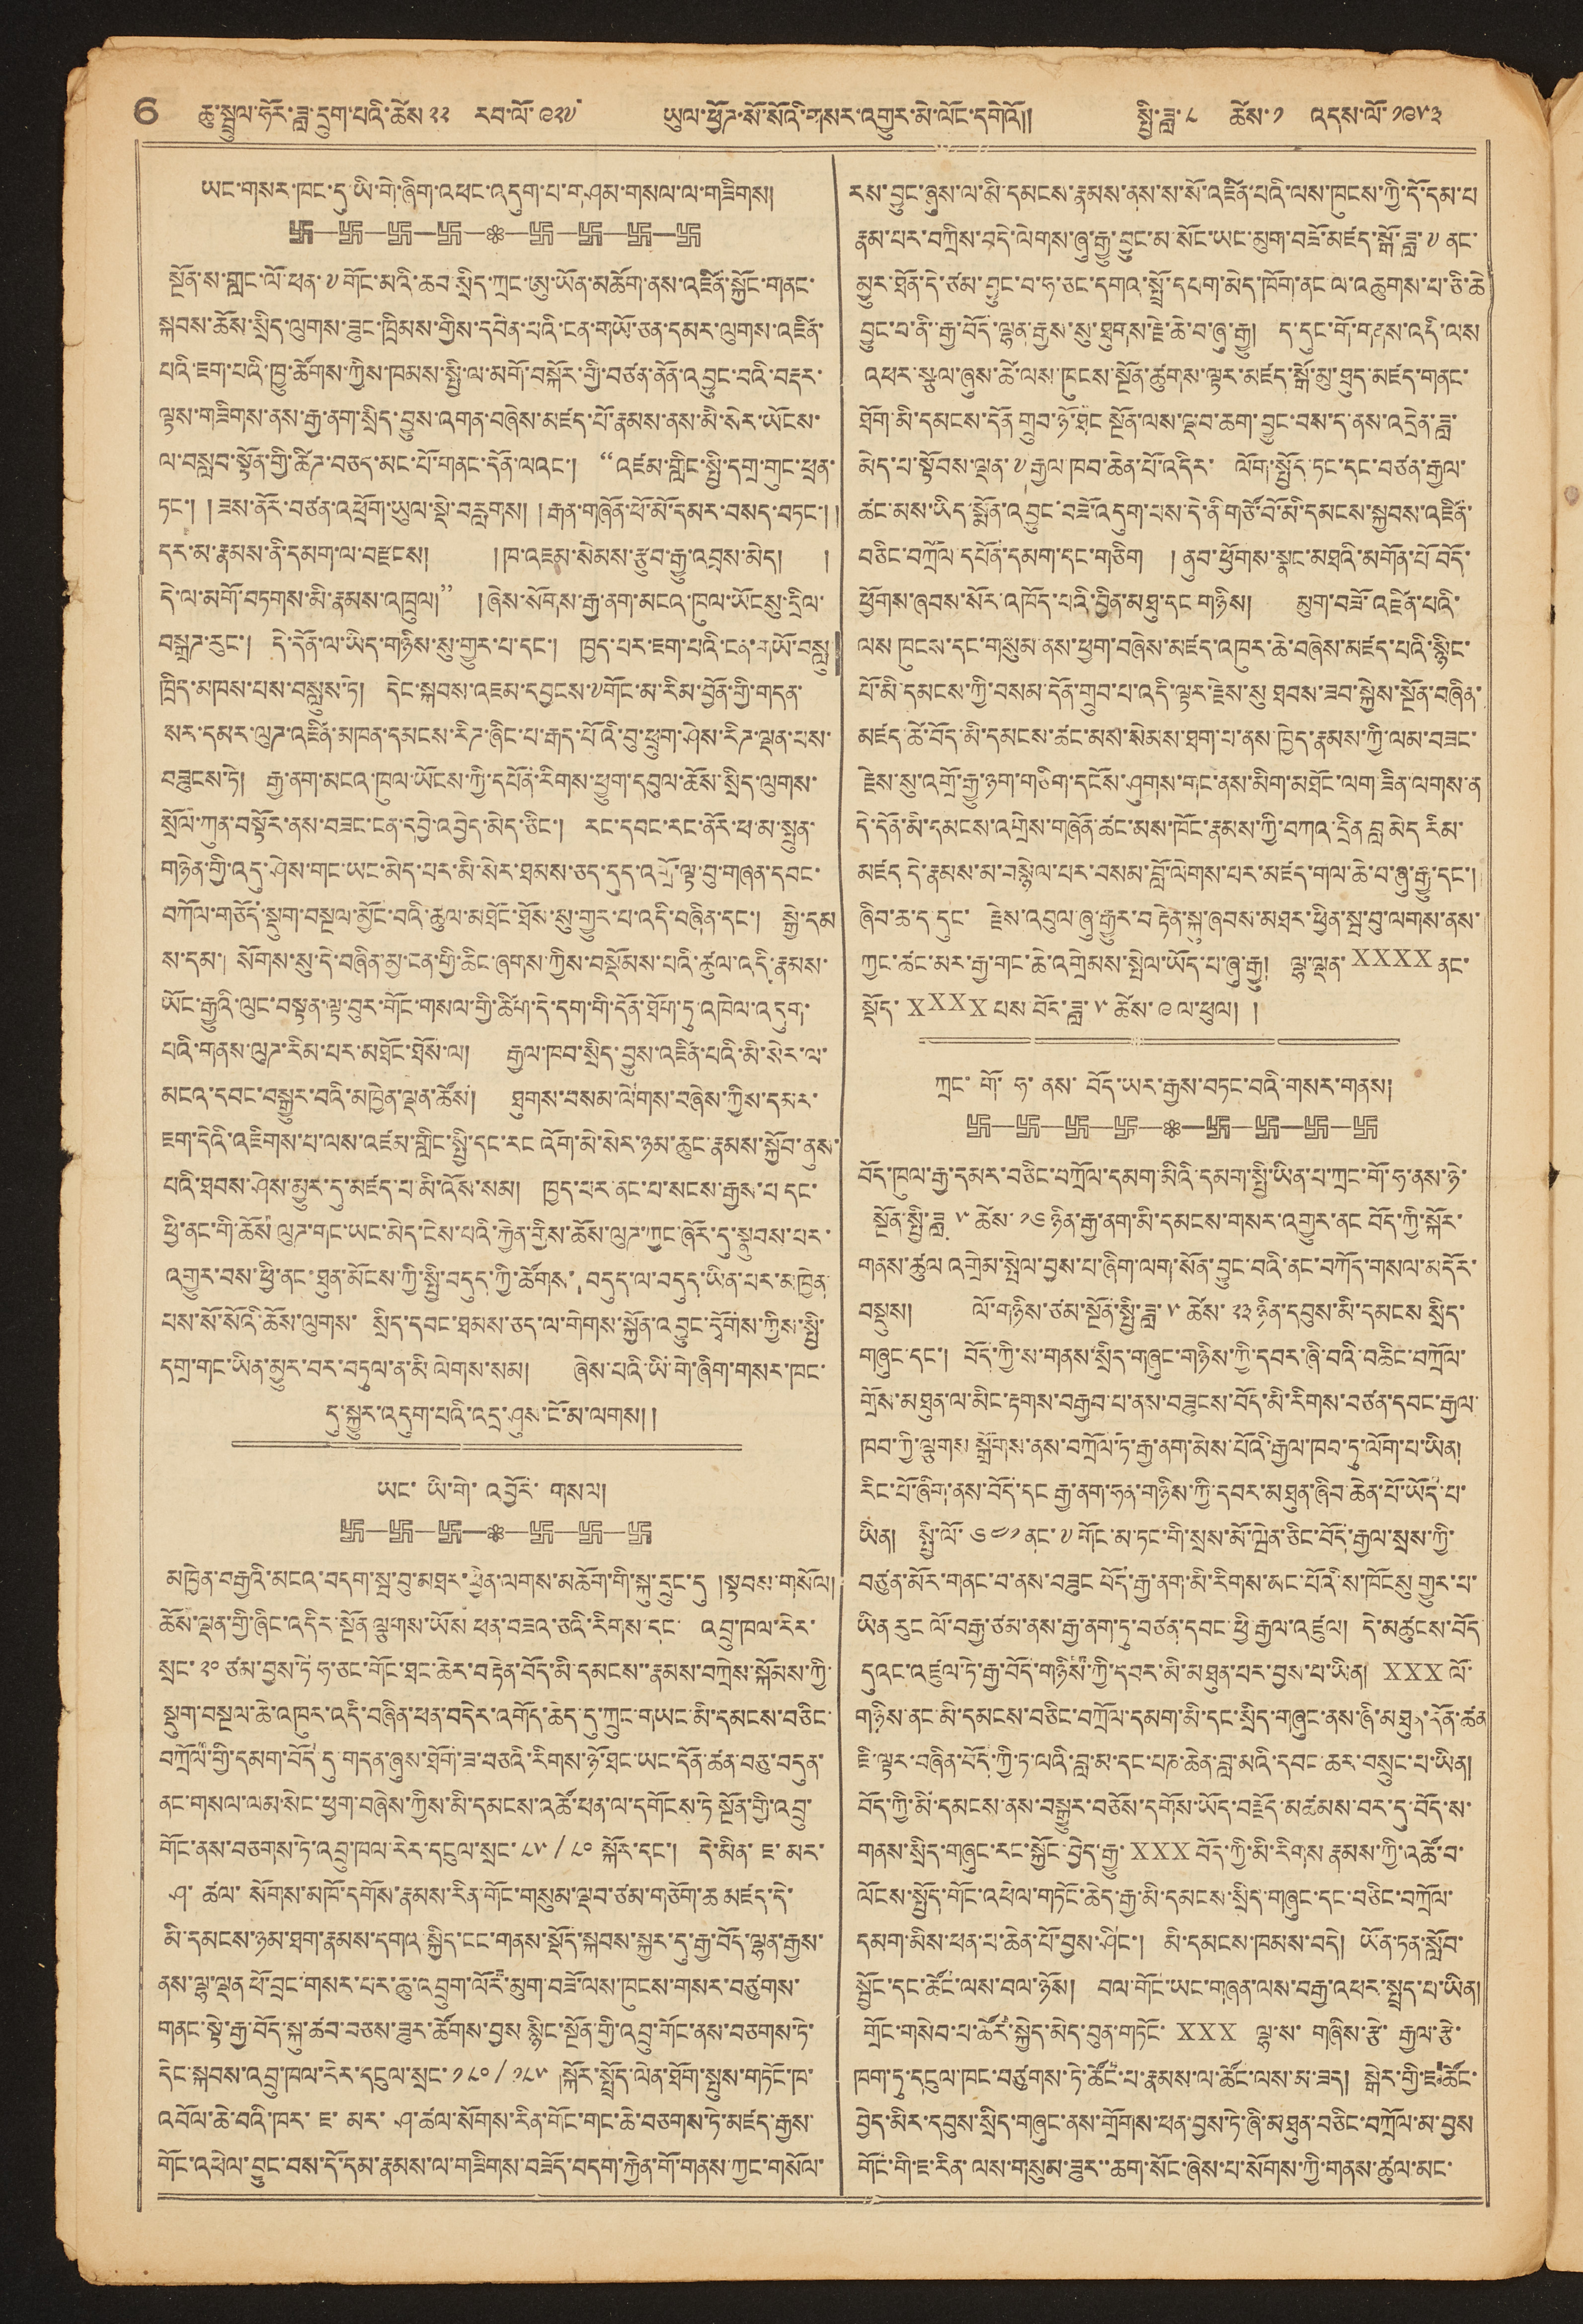6 ཆུ་སྦྲུལ་ཧོར་ཟླ་དྲུག་པའི་ཚེས་ ༢༢ རབ་ལོ་ ༩༢༧ ཡུལ་ཕྱོཌ་སོ་སོའི་གསར་འགྱུར་མེ་ལོང་དགེའི།། སྤྱི་ཟླ་༨ ཚེས་༡ འདས་ལོ་ ༡༩༥༣
ཡང་གསར་ཁང་དུ་ཡི་གེ་ཞིག་འཕང་འདུག་པ་གཤམ་གསལ་ལ་གཟིགས།
སྔོན་ས་གླང་ལོ་ཕན་༸གོང་མའི་ཆབ་སྲིད་ཀྲང་ཨུ་ཡོན་མཆོག་ནས་འཛིན་སྐྱོང་གནང་
སྐབས་ཆོས་སྲིད་ལུགས་ཟུང་ཁྲིམས་གྱིས་དབེན་པའི་ངན་གཡོ་ཅན་དམར་ལུགས་འཛིན་
པའི་ཇག་པའི་ཁྱུ་ཚོགས་ཀྱིས་ཁམས་སྤྱི་ལ་མགོ་བསྐོར་གྱི་བཙན་ནོན་འབྱུང་བའི་བརྡར་
ལྟས་གཟིགས་ནས་རྒྱ་ནག་སྲིད་བྱུས་འགན་བཞེས་མཛད་པོ་རྣམས་ནས་མི་སེར་ཡོངས་
ལ་བསླབ་སྟོན་གྱི་ཚིཌ་བཅད་མང་པོ་གནང་དོན་ལའང་། '"འཛམ་གླིང་སྤྱི་དགྲ་གུང་ཕྲན་
ཏང་། །ཟས་ནོར་བཙན་འཕྲོག་ཡུལ་སྡེ་བརླགས། །རྒན་གཞོན་ཕོ་མོ་དམར་བསད་བཏང་།།
དར་མ་རྣམས་ནི་དམག་ལ་བརྫངས། ཁ་འཇམ་སེམས་རྩུབ་རྒྱུ་འབྲས་མེད།།
དེ་ལ་མགོ་བཏགས་མི་རྣམས་འཁྲུལ།" །ཞེས་སོགས་རྒྱ་ནག་མངའ་ཁུལ་ཡོངསུ་དྲིལ་
བསྒྲཌ་རུང་། དེ་དོན་ལ་ཡིད་གཉིས་སུ་གྱུར་པ་དང་། ཁྱད་པར་ཇག་པའི་ངན་གཡོ་བསླུ་
ཁྲིད་མཁས་པས་བསླུས་ཏེ། དེང་སྐབས་འཇམ་དབྱངས་༸གོང་མ་རིམ་བྱོན་གྱི་གདན་
སར་དམར་ལུཌ་འཛིན་མཁན་དམངས་རིཌ་ཞིང་པ་རྒད་པོའི་བུ་ཕྲུག་ཤེས་རིཌ་ལྡན་པས་
བཟུངས་ཏེ། རྒྱ་ནག་མངའ་ཁུལ་ཡོངས་ཀྱི་དཔོན་རིགས་ཕྱུག་དབུལ་ཆོས་སྲིད་ལུགས་
སྲོལ་ཀུན་བསྟོར་ནས་བཟང་ངན་དབྱེ་འབྱེད་མེད་ཅིང་། རང་དབང་ནོར་ཕ་མ་སྤུན་
གཉེན་གྱི་འདུ་ཤེས་གང་ཡང་མེད་པར་མི་སེར་ཐམས་ཅད་དུད་འགྲོ་ལྟ་བུ་གཞན་དབང་
བཀོལ་གཅོད་སྡུག་བསྔལ་མྱོང་བའི་ཚུལ་མཐོང་ཐོས་སུ་གྱུར་པ་འདི་བཞིན་དང་། སྒྱེ་དམ་
ས་དམ་། སོགས་སུ་དེ་བཞིན་མྱ་ངན་གྱི་ཆིང་ཞགས་ཀྱིས་བསྡོམས་པའི་ཚུལ་འདི་རྣམས་
ཡོང་རྒྱུའི་ལུང་བསྟན་ལྟ་བུར་གོང་གསལ་གྱི་ཚིག་དེ་དག་གོ་དོན་ཐོག་ཏུ་འཁེལ་འདུག་
པའི་གནས་ལུཌ་རིམ་པར་མཐོང་ཐོས་ལ། རྒྱལ་ཁབ་སྲིད་བྱུས་འཛིན་པའི་མི་སེར་ལ་
མངའ་དབང་བསྒྱུར་བའི་མཁྱེན་ལྡན་ཚོས། ཐུགས་བསམ་ལེགས་བཞེས་ཀྱིས་དམར་
ཇག་དེའི་འཇིགས་པ་ལས་འཛམ་གླིང་སྤྱི་དང་རང་འོག་མེ་སེར་ཉམ་ཆུང་རྣམས་སྐྱོབ་ནུས་
པའི་ཐབས་ཤེས་མྱུར་དུ་མཛད་པ་མི་འོས་སམ། ཁྱད་པར་ནང་པ་སངས་རྒྱས་པ དང་
ཕྱི་ནང་གི་ཆོས་ལུཌ་གང་ཡང་མེད་ངེས་པའི་རྐྱེན་གྱིས་ཆོས་ལུཌ་ཀྱང་ཞོར་དུ་སྣུབས་པར་
འགྱུར་བས་ཕྱི་ནང་ཐུན་མོངས་ཀྱི་སྤྱི་བདུད་ཀྱི་ཚོགས། བདུད་ལ་བདུད་ཡིན་པར་མཁྱེན་
པས་སོ་སོའི་ཆོས་ལུགས་སྲིད་དབང་ཐམས་ཅད་ལ་གེགས་སྐྱོན་འབྱུང་དྭོགས་ཀྱིས་སྤྱི་
དགྲ་གང་ཡིན་མྱུར་བར་བཏུལ་ན་མི་ལེགས་སམ། ཞེས་པའི་ཡི་གེ་ཞིག་གསར་ཁང་
དུ་སྐྱུར་འདུག་པའི་འདྲ་ཤུས་ངོ་མ་ལགས།
ཡང་ཡི་གེ་འབྱོར་གསལ།
མཁྱེན་བརྒྱའི་མངའ་བདག་སྦ་བུ་མཐར་ཕྱིན་ལགས་མཆོག་གི་སྐུ་དྲུང་དུ །སྟབས་གསོལ།
ཆོས་ལྡན་གྱི་ཞིང་འདིར་སྔོན་ལྕགས་ཡོས ཕན་བཟའ་ཅའི་རིགས་དང་ འབྲུ་ཁལ་རེར་
སྲང་ ༢༠ ཙམ་བྱས་ཏེ ཧ་ཅང་གོང་ཐང་ཆེར་བརྟེན་བོད་མི་དམངས་་རྣམས་བཀྲེས་སྐོབས་ཀྱི་
སྡུག་བསྔལ་ཆེ་འཁུར་འདི་བཞིན་ཕན་བདེར་འགོད་ཆེད་དུ་ཀྲུང་གྱང་མི་དམངས་བཅིང་
བཀྲོལ་གྱི་དམག་བོད་དུ་གདན་ཞུས་ཐོག་ཟ་བཅའི་རིགས་ཉོ་ཐང་ཡང་དོན་ཚན་བཅུ་བདུན་
ནང་གསལ་ལམ་སེང་ཕྱག་བཞེས་ཀྱིས་མི་དམངས་འཚོ་ཕན་ལ་དགོངས་ཏེ སྔོན་གྱི་འབྲུ་
གོང་ནས་བཅགས་ཏེ་འབྲུ་ཁལ་རེར་དངུལ་སྲུང་ ༨༥ / ༨༠ སྐོར་དང་། དེ་མིན་ཇ་མར་
ཤ་ཚལ་སོགས་མཁོ་དགོས་རྣམས་རིན་གོང་གསུམ་ལྡབ་ཙམ་གཅོག་ཆ་མཛད་དེ་
མི་དམངས་ཉམ་ཐག་རྣམས་དགའ་སྐྱིད་ངང་གནས་སྡོད་སྐབས་སྐྱར་དུ་རྒྱ་བོད་ལྷན་རྒྱས་
ནས་ལྷ་ལྡན་ཕོ་བྲང་གསར་པར་ཆུ་འབྲུལ་ལོར་མུག་བཟོ་ལས་ཁུངས་གསར་བཙུགས་
གནང་སྟེ་རྒྱ་བོད་སྐུ་ཚབ་བཅས་ཟུར་ཚོགས་བྱས སྙིང་སྔོན་གྱི་འབྲུ་གོང་ནས་བཅགས་ཏེ་
དེང་སྐབས་འབྲུ་ཁལ་རེར་དངུལ་སྲང་ ༡༨༠/ ༡༨༥ སྐོར་སྤྲོད་ལེན་ཐོག་སྤུས་གཏོར་ཁ་
འབོལ་ཆེ་བའི་ཁར་ཇ་མར་ཤ་ཚལ་སོགས་རིན་གོང་གང་ཆེ་བཅགས་ཏེ་མཛད་རྒྱས་
གོང་འཕེལ་བྱུང་བས་དོ་དམ་རྣམས་ལ་གཟིགས་བཟོད་བདག་རྐྱེན་གོ་གནས་ཀྱང་གསོལ་
རས་བྱུང་ཞུས་ལ་མི་དམངས་རྣམས་ནས་ས་སོ་འཛིན་པའི་ལས་ཁུངས་ཀྱི་དོ་དམ་པ
རྣམ་པར་བཀྲིས་བདེ་ལེགས་ཞུ་རྒྱུ་བྱུང་མ་སོང་ཡང་མུག་བཟོ་མཛད་སྒོ་ཟླ་ ༧ ནང་
མྱུར་ཐོན་དེ་ཙམ་བྱུང་བ་ཧ་ཅང་དགའ་སྤྱོ་དཔག་མེད་ཁོག་ནང་ལ་འཆུགས་པ་ཅི་ཆེ་
བྱུང་བ་ནི་རྒྱ་བོད་ལྷན་རྒྱས་སུ་ཐུགས་རྗེ་ཆེ་བ་ཞུ་རྒྱུ། ད་དུང་གོ་གནས་འདི་ལས
འཕར་ལྩལ་ཞུས་ཚེ་ལས་ཁུངས་སྔོན་ཚུགས་ལྟར་མཛད་སྒོ་མུ་ཐུད་མཛད་གནང་
ཐོག་མི་དམངས་དོན་གྲུབ་ཉོ་ཐང་སྔོན་ལས་ལྡབ་ཆག་བྱུང་བས་ད་ནས་འདྲེན་ཟླ་
མེད་པ་སྟོབས་ལྡན་༸རྒྱལ་ཁབ་ཆེན་པོ་འདིར་ལོག་སྤྱོད་ཏང་དང་བཙན་རྒྱལ་
ཚང་མས་ཡིད་སྨོན་འབྱུང་བཟོ་འདུག་པས་དེ་ནི་གཙོ་བོ་མི་དམངས་སྐྱབས་འཛིན་
བཅིང་བཀྲོལ་དཔོན་དམག་དང་གཅིག །ནུབ་ཕྱོགས་སྣང་མཐའི་མགོན་པོ་བོད་
ཕྱོགས་ཞབས་སོར་འཁོད་པའི་བྱིན་མཐུ་དང་གཉིས། མུག་བཟོ་འཛིན་པའི་
ལས་ཁུངས་དང་གསུམ་ནས་ཕྱག་བཞེས་མཛད་འཁུར་ཆེ་བཞེས་མཛད་འཁུར་ཆེ་བཞེས་མཛད་པའི་སྙིང་
པོ་མི་དམངས་ཀྱི་བསམ་དོན་གྲུབ་པ་འདི་ལྟར་རྗེས་སུ་ཐབས་ཟབ་སྐྱེས་སྔོན་བཞིན་
མཛད་ཚེ་བོད་མི་དམངས་ཚང་མས་སེམས་ཐག་པ་ནས་ཁྱེད་རྣམས་ཀྱི་ལམ་བཟང་
རྗེས་སུ་འགྲོ་རྒྱུ་ཉག་གཅིག་དངོས་ཤུགས་གང་ནས་མིག་མཐོང་ལག་ཟིན་ལགས་ན་
དེ་དོན་མི་དམངས་འགྲེས་གཞོན་ཚང་མས་ཁོང་རྣམས་ཀྱི་བཀའ་དྲིན བླ མེད རིམ་
མཛད དེ་རྣམས་མ་བསྙེལ་པར་བསམ་བློ་ལེགས་པར་མཛད་གལ་ཆེ་བ་ཞུ་རྒྱུ་དང་།
ཞིབ་ཆ་ད་དུང་རྗེས་འབུལ་ཞུ་རྒྱུར་བརྟེན་སྐུ་ཞབས་མཐར་ཕྱིན་སྦ་བུ་ལགས་ནས་
ཀྱང་ཚང་མར་རྒྱ་གང་ཆེ་འགྲེམས་སྤེལ་ཡོད་པ་ཞུ་རྒྱུ། ལྷ་ལྡན་XXXX ནང་
སྡོད་ XXXX པས བོད་ཟླ་༥ ཚེས་ ༩ ལ་ཕུལ། །
ཀྲང་གོ་ཧ་ནས་བོད་ཡར་རྒྱས་བཏང་བའི་གསར་གནས།
བོད་ཁུལ་རྒྱ་དམར་བཅིང་བཀྲོལ་དམག་མིའི་དམག་སྤྱི་ཡིན་པ་ཀྲང་གོ་ཧ་ནས་ཉེ་
སྔོན་སྤྱི་ཟླ་ ༥ ཚེས་ ༡༦ ཉིན་རྒྱ་ནག་མི་དམངས་གསར་འགྱུར་ནང བོད་ཀྱི་སྐོར་
གནས་ཚུལ་འགྲེམ་སྤེལ་བྱས་པ་ཞིག་ལག་སོན་བྱུང་བའི་ནང་བཀོད་གསལ་མདོར་
བསྡུས། ལོ་གཉིས་ཙམ་སྔོན་སྤྱི་ཟླ་༥ཚེས་༢༣ཉིན་དབུས་མི་དམངས སྲིད་
གཞུང་དང་། བོད་ཀྱི་ས་གནས་སྲིད་གཞུང་གཉིས་ཀྱི་དབར་ཞི་བའི་བཆིང་བཀྲོལ་
གྲོལ་མཐུན་ལ་མིང་རྟགས་བརྒྱབ་པ་ནས་བཟུངས་བོད་མི་རིགས་བཙན་དབང་རྒྱལ་
ཁབ་ཀྱི་ལྕགས  སྒྲོགས་ནས་བཀྲོལ་ཏ་རྒྱ་ནག་མེས་པོའི་རྒྱལ་ཁབ་ཏུ་ལོག་པ་ཡིན།
རིང་པོ་ཞིག་ནས་བོད་དང རྒྱ་ནག་ཧན་གཉིས་ཀྱི་དབར་མཐུན་ཞིབ་ཆེན་པོ་ཡོད་པ་
ཡིན། སྤྱི་ལོ་ ༦༤༡ནང་༸གོང་མ་ཏང་གི་སྲས་མོ་ཝེན་ཅིང་བོད་རྒྱལ་སྲས་ཀྱི་
བཙུན་མོར་གནང་བ་ནས་བཟུང་བོད་རྒྱ་ནག་མི་རིགས་མང་པོའི་ཁོངསུ གྱུར་པ་
ཡིན་རུང ལོ་བརྒྱ་ཙམ་ནས་རྒྱ་ནག་ཏུ་བཙན་དབང་ཕྱི་རྒྱལ་འཛུལ། དེ་མཚུངས་བོད
དུའང་འཛུལ་ཏེ་རྒྱ་བོད་གཉིས་ཀྱི་དབར་མི་མཐུན་པར་བྱས་པ་ཡིན། XXX།ལོ་
གཉིས་ནང་མི་དམངས་བཅིང་བཀྲོལ་དམག་མི་དང་སྲིད་གཞུང་ནས་ཞི་མཐུན་དོན་ཚན
ཇི་ལྟར་བཞིན་བོད་ཀྱི་ཏ་ལའི་བླ་མ་དང་པན་ཆེན་བླ་མའི་དབང་ཆར་བསྲུང་པ་ཡིན།
བོད་ཀྱི་མི་དམངས་ནས་བསྒྱུར་བཅོས་དགོས་ཡོད་བརྗོད་མཚམས་བར་དུ་བོད་ས་
གནས་སྲིད་གཞུང་རང་སྐྱོང་བྱེད་རྒྱུ་ XXX བོད་ཀྱི་མི་རིགས རྣམས་ཀྱི་འཚོ་བ་
ལོངས་སྤྱོད་གོང་འཕེལ་གཏོང་ཆེད་རྒྱ་མི་དམངས་སྲིད་གཞུང་དང་བཅིང་བཀྲོལ་
དམག་མིས་ཕན་པ་ཆེན་པོ་བྱས་ཤིང་། མི་དམངས་ཁམས་བདེ། ཡོན་ཏན་སློབ་
སྦྱོང་དང་ཚོང་ལས་བལ་ཉོས། བལ་གོང་ཡང་གཞན་ལས་བརྒྱ་འཕར་སྤྲད་པ་ཡིན།
གྲོང་གསེབ་པ་ཚོར་སྐྱེད་མེད་བུན་གཏིང་ XXX ལྷ་ས་གཞིས་རྩེ་རྒྱལ་རྩེ་
ཁག་ཏུ་དངུལ་ཁང་བཙུགས་ཏེ་ཚོང་པ་རྣམས་ལ་ཚོང་ལས་མ་ཟད། སྒེར་གྱི་ཇ་ཚོང་
བྱེད་མིར་དབུས་སྲིད་གཞུང་ནས་གྲོགས་ཕན་བྱས་ཏེ་ཞི་མཐུན་བཅིང་བཀྲོལ་མ་བྱས
གོང་གི་ཇ་རིན་ལས་གསུམ་ཟུར་་ཆག་སོང་ཞེས་པ་སོགས་ཀྱི་གནས་ཚུལ་མང་
